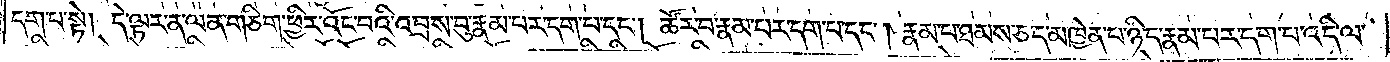དག་པ་སྟེ། དེ་ལྟར་ན་ལན་གཅིག་ཕྱིར་འོང་བའི་འབྲས་བུ་རྣམ་པར་དག་པ་དང༌། ཚོར་བ་རྣམ་པར་དག་པ་དང༌། རྣམ་པ་ཐམས་ཅད་མཁྱེན་པ་ཉིད་རྣམ་པར་དག་པ་འདི་ལ་
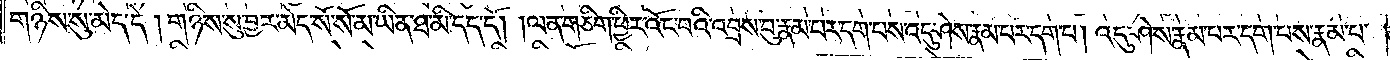གཉིས་སུ་མེད་དེ། གཉིས་སུ་བྱར་མེད་སོ་སོ་མ་ཡིན་ཐ་མི་དད་དོ། །ལན་གཅིག་ཕྱིར་འོང་བའི་འབྲས་བུ་རྣམ་པར་དག་པས་འདུ་ཤེས་རྣམ་པར་དག་པ། འདུ་ཤེས་རྣམ་པར་དག་པས་རྣམ་པ་
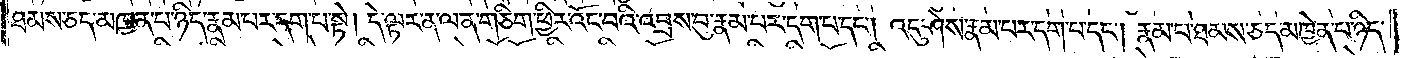ཐམས་ཅད་མཁྱན་པ་ཉིད་རྣམ་པར་དག་པ་སྟེ། དེ་ལྟར་ན་ལན་གཅིག་ཕྱིར་འོང་བའི་འབྲས་བུ་རྣམ་པར་དག་པ་དང༌། འདུ་ཤེས་རྣམ་པར་དག་པ་དང༌། རྣམ་པ་ཐམས་ཅད་མཁྱེན་པ་ཉིད་
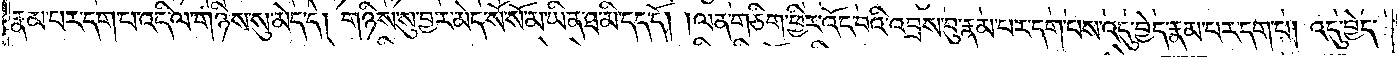རྣམ་པར་དག་པ་འདི་ལ་གཉིས་སུ་མེད་དེ། གཉིས་སུ་བྱར་མེད་སོ་སོ་མ་ཡིན་ཐ་མི་དད་དོ། །ལན་གཅིག་ཕྱིར་འོང་བའི་འབྲས་བུ་རྣམ་པར་དག་པས་འདུ་བྱེད་རྣམ་པར་དག་པ། འདུ་བྱེད་
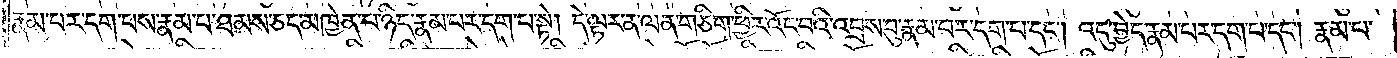རྣམ་པར་དག་པས་རྣམ་པ་ཐམས་ཅད་མཁྱེན་པ་ཉིད་རྣམ་པར་དག་པ་སྟེ། དེ་ལྟར་ན་ལན་གཅིག་ཕྱིར་འོང་བའི་འབྲས་བུ་རྣམ་པར་དག་པ་དང༌། འདུ་བྱེད་རྣམ་པར་དག་པ་དང༌། རྣམ་པ་
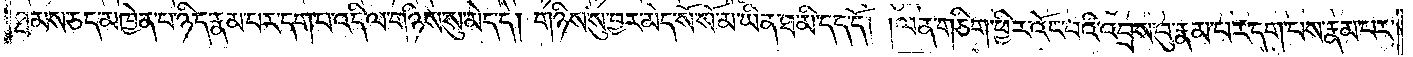ཐམས་ཅད་མཁྱེན་པ་ཉིད་རྣམ་པར་དག་པ་འདི་ལ་གཉིས་སུ་མེད་དེ། གཉིས་སུ་བྱར་མེད་སོ་སོ་མ་ཡིན་ཐ་མི་དད་དོ། །ལན་གཅིག་ཕྱིར་འོང་བའི་འབྲས་བུ་རྣམ་པར་དག་པས་རྣམ་པར་
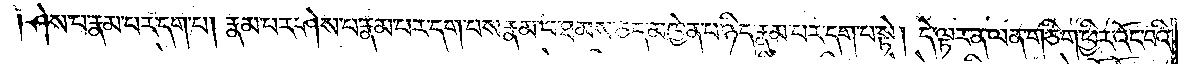ཤེས་པ་རྣམ་པར་དག་པ། རྣམ་པར་ཤེས་པ་རྣམ་པར་དག་པས་རྣམ་པ་ཐམས་ཅད་མཁྱེན་པ་ཉིད་རྣམ་པར་དག་པ་སྟེ། དེ་ལྟར་ན་ལན་གཅིག་ཕྱིར་འོང་བའི་
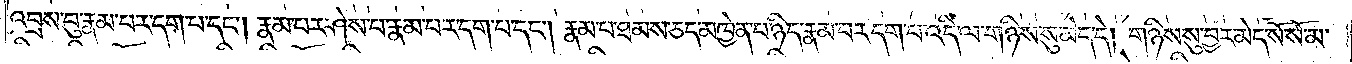འབྲས་བུ་རྣམ་པར་དག་པ་དང༌། རྣམ་པར་ཤེས་པ་རྣམ་པར་དག་པ་དང༌། རྣམ་པ་ཐམས་ཅད་མཁྱེན་པ་ཉིད་རྣམ་པར་དག་པ་འདི་ལ་གཉིས་སུ་མེད་དེ། གཉིས་སུ་བྱར་མེད་སོ་སོ་མ་
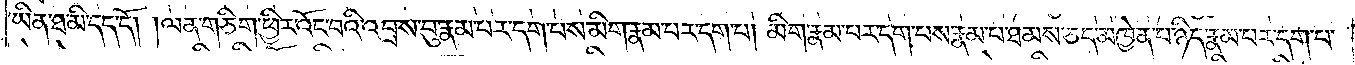ཡིན་ཐ་མི་དད་དོ། །ལན་གཅིག་ཕྱིར་འོང་བའི་འབྲས་བུ་རྣམ་པར་དག་པས་མིག་རྣམ་པར་དག་པ། མིག་རྣམ་པར་དག་པས་རྣམ་པ་ཐམས་ཅད་མཁྱེན་པ་ཉིད་རྣམ་པར་དག་པ་
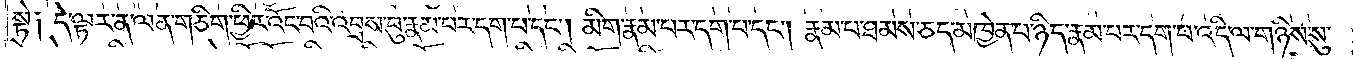སྟེ༑ དེ་ལྟར་ན་ལན་གཅིག་ཕྱིར་འོང་བའི་འབྲས་བུ་རྣམ་པར་དག་པ་དང༌། མིག་རྣམ་པར་དག་པ་དང༌། རྣམ་པ་ཐམས་ཅད་མཁྱེན་པ་ཉིད་རྣམ་པར་དག་པ་འདི་ལ་གཉིས་སུ་
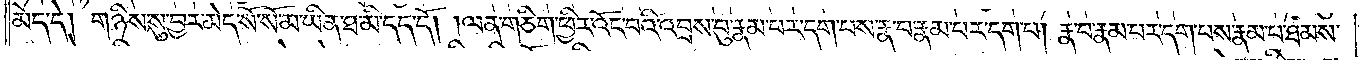མེད་དེ། གཉིས་སུ་བྱར་མེད་སོ་སོ་མ་ཡིན་ཐ་མི་དད་དོ། །ལན་གཅིག་ཕྱིར་འོང་བའི་འབྲས་བུ་རྣམ་པར་དག་པས་རྣ་བ་རྣམ་པར་དག་པ། རྣ་བ་རྣམ་པར་དག་པས་རྣམ་པ་ཐམས་
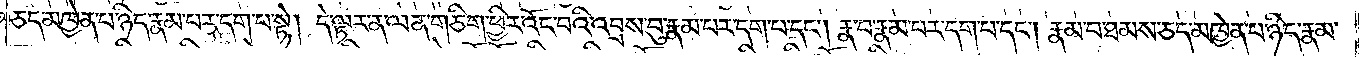ཅད་མཁྱེན་པ་ཉིད་རྣམ་པར་དག་པ་སྟེ། དེ་ལྟར་ན་ལན་གཅིག་ཕྱིར་འོང་བའི་འབྲས་བུ་རྣམ་པར་དག་པ་དང༌། རྣ་བ་རྣམ་པར་དག་པ་དང༌། རྣམ་པ་ཐམས་ཅད་མཁྱེན་པ་ཉིད་རྣམ་
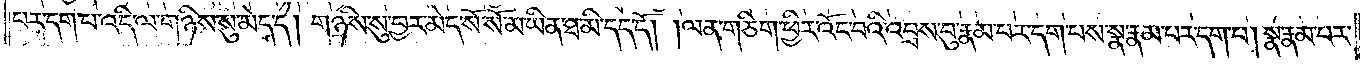པར་དག་པ་འདི་ལ་གཉིས་སུ་མེད་དེ། གཉིས་སུ་བྱར་མེད་སོ་སོ་མ་ཡིན་ཐ་མི་དད་དོ། །ལན་གཅིག་ཕྱིར་འོང་བའི་འབྲས་བུ་རྣམ་པར་དག་པས་སྣ་རྣམ་པར་དག་པ། སྣ་རྣམ་པར་
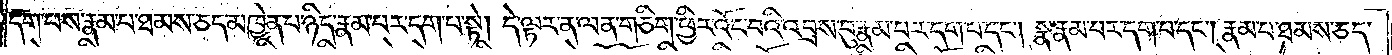དག་པས་རྣམ་པ་ཐམས་ཅད་མཁྱེན་པ་ཉིད་རྣམ་པར་དག་པ་སྟེ། དེ་ལྟར་ན་ལན་གཅིག་ཕྱིར་འོང་བའི་འབྲས་བུ་རྣམ་པར་དག་པ་དང༌། སྣ་རྣམ་པར་དག་པ་དང༌། རྣམ་པ་ཐམས་ཅད་
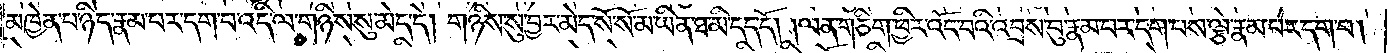མཁྱེན་པ་ཉིད་རྣམ་པར་དག་པ་འདི་ལ་གཉིས་སུ་མེད་དེ། གཉིས་སུ་བྱར་མེད་སོ་སོ་མ་ཡིན་ཐ་མི་དད་དོ། །ལན་གཅིག་ཕྱིར་འོང་བའི་འབྲས་བུ་རྣམ་པར་དག་པས་ལྕེ་རྣམ་པར་དག་པ།
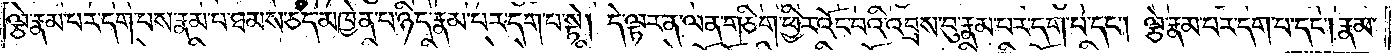ལྕེ་རྣམ་པར་དག་པས་རྣམ་པ་ཐམས་ཅད་མཁྱེན་པ་ཉིད་རྣམ་པར་དག་པ་སྟེ། དེ་ལྟར་ན་ལན་གཅིག་ཕྱིར་འོང་བའི་འབྲས་བུ་རྣམ་པར་དག་པ་དང༌། ལྕེ་རྣམ་པར་དག་པ་དང༌། རྣམ་
